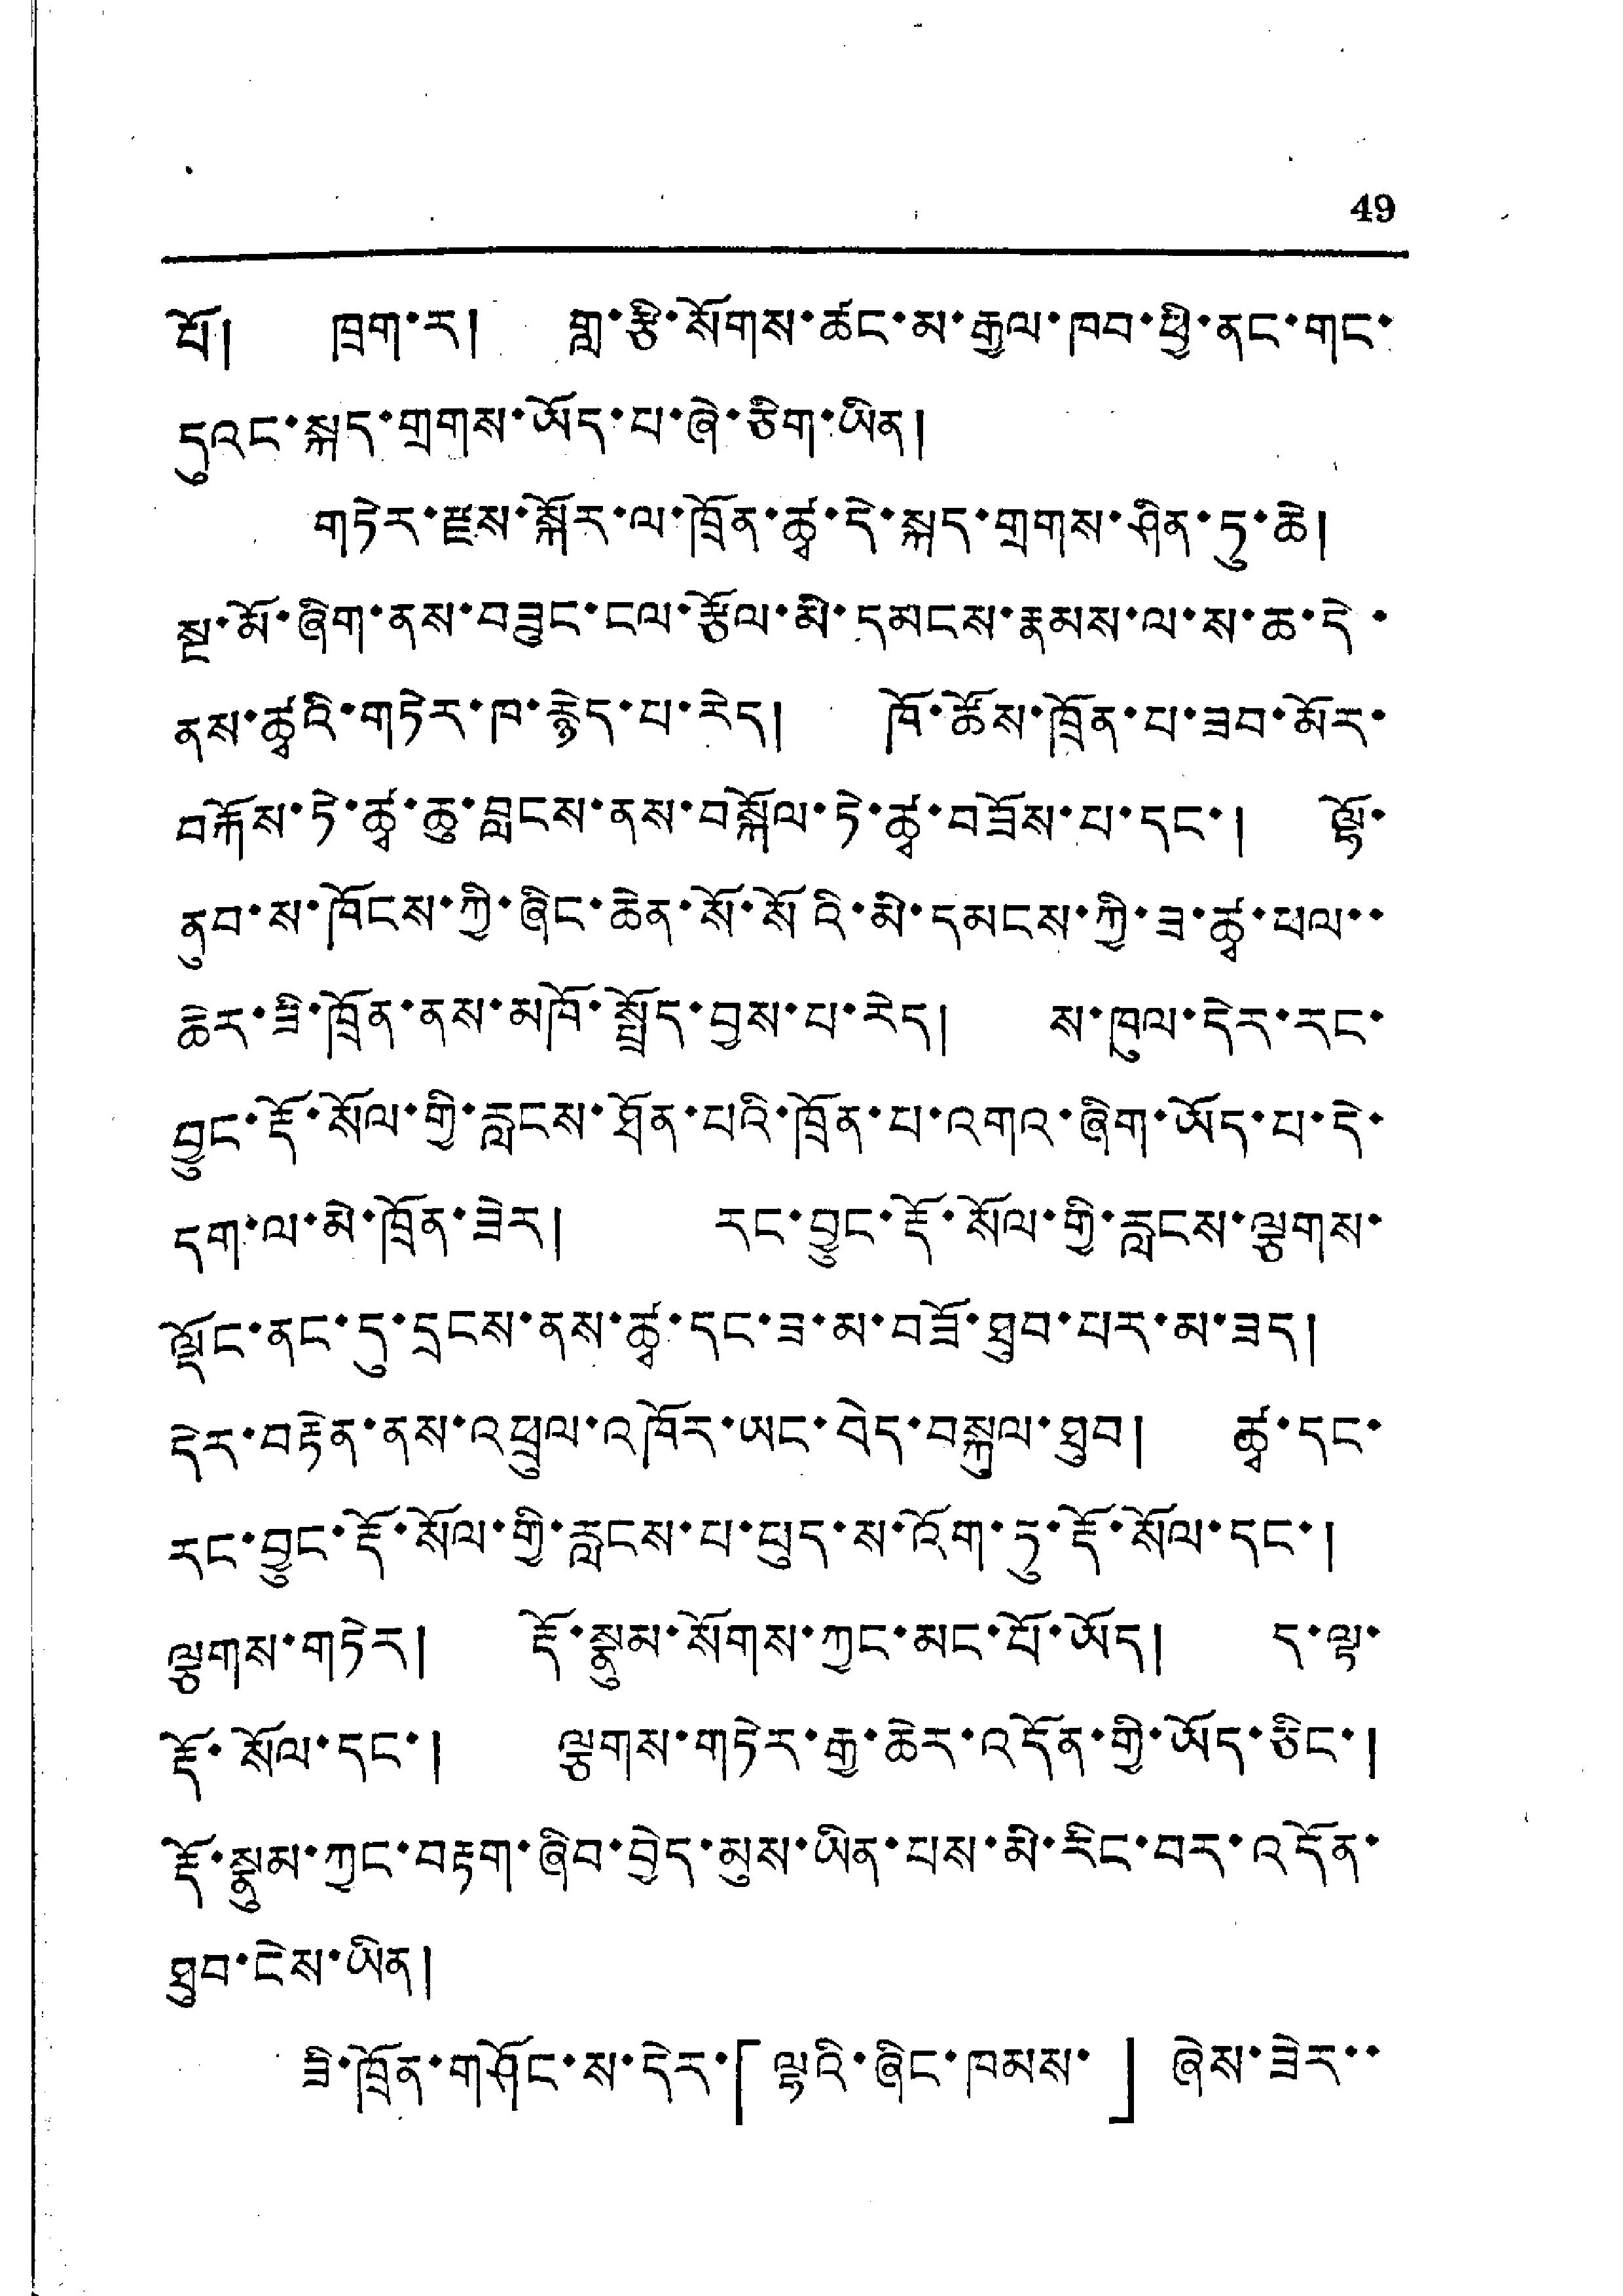49
པོ། ཁྲག་ར། གླ་རྩི་སོགས་ཚང་མ་རྒྱལ་ཁབ་ཕྱི་ནང་གང་
དུའང་སྐད་གྲགས་ཡོད་པ་ཞེ་ཅིག་ཡིན།
གཏེར་རྫས་སྐོར་ལ་ཁྲོན་ཚྭ་དེ་སྐད་གྲགས་ཤིན་ཏུ་ཆེ།
སྲ་མོ་ཞིག་ནས་བཟུང་ངལ་རྩོལ་མི་དམངས་རྣམས་ལ་ས་ཆ་དེ་
ནས་ཚྭའི་གཏེར་ཁ་རྙེད་པ་རེད། ཁོ་ཚོས་ཁྲོན་པ་ཟབ་མོར་
བརྐོས་ཏེ་ཚྭ་ཆུ་བླངས་ནས་བསྐོལ་ཏེ་ཚྭ་བཟོས་པ་དང་། ལྷོ་
ནུབ་ས་ཁོངས་ཀྱི་ཞིང་ཆེན་སོ་སོའི་མི་དམངས་ཀྱི་ཟ་ཚྭ་ཕལ་་
ཆེར་ཟི་ཁྲོན་ནས་མཁོ་སྤྲོད་བྱས་པ་རེད། ས་ཁུལ་དེར་རང་
བྱུང་རྡོ་སོལ་གྱི་རླངས་ཐོན་པའི་ཁྲོན་པ་འགའ་ཞིག་ཡོད་པ་དེ་
དག་ལ་མེ་ཁྲོན་ཟེར། རང་བྱུང་རྡོ་སོལ་གྱི་རླངས་ལྕགས་
ལྡོང་ནང་དུ་དྲངས་ནས་ཚྭ་དང་བ་མ་བཟོ་ཐུབ་པར་མ་ཟད།
དེར་བརྟེན་ནས་འཕྲུལ་འཁོར་ཡང་བེད་བསྐུལ་ཐུབ། ཚྭ་དང་
རང་བྱུང་རྡོ་སོལ་གྱི་རླངས་པ་ཕུད་ས་འོག་ཏུ་རྡོ་སོལ་དང་།
ལྕགས་གཏེར། རྡོ་སྣུམ་སོགས་ཀྱང་མང་པོ་ཡོད། ད་ལྟ་
རྡོ་སོལ་དང་། ལྕགས་གཏེར་རྒྱ་ཆེར་འདོན་གྱི་ཡོད་ཅིང་།
རྡོ་སྣུམ་ཀྱང་བརྟག་ཞིབ་བྱེད་མུས་ཡིན་པས་མི་རིང་བར་འདོན་
ཐུབ་ངེས་ཡིན།
ཟེ་ཁྲོན་གཤོང་ས་དེར་「ལྟའི་ཞིང་ཁམས་」ཞེས་ཟེར་་
